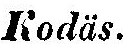Kodäs.
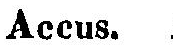Accus.
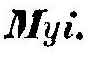Myi.
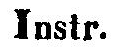Instr.
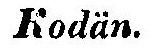Kodän.
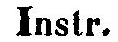Instr.
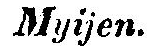Myijen.
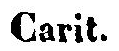Carit.
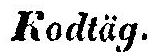Kodtäg.
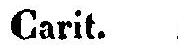Carit.
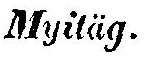Myitäg.
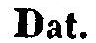Dat.
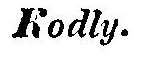Kodly.
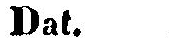Dat.
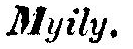Myily.
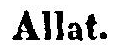Allat.
